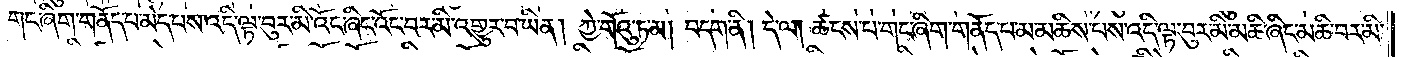གང་ཞིག་གནོད་པ་མེད་པས་འདི་ལྟ་བུར་མི་འོང་ཞིང་འོང་བར་མི་འགྱུར་བ་ཡིན། ཀྱེ་གོའུ་ཏ་མ། བདག་ནི། དེ་ལ། ཚངས་པ་གང་ཞིག་གནོད་པ་མ་མཆིས་པས་འདི་ལྟ་བུར་མ་མཆི་ཞིང་མཆི་བར་མི་
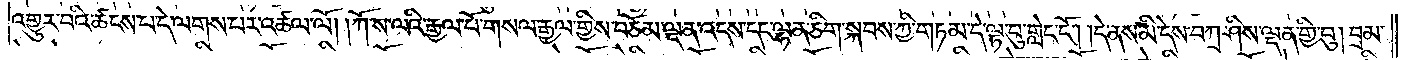འགྱུར་བའི་ཚངས་པ་དེ་ལགས་པར་འཚལ་ལོ། །ཀོ་ས་ལའི་རྒྱལ་པོ་གསལ་རྒྱལ་གྱིས་བཅོམ་ལྡན་འདས་དང་ལྷན་ཅིག་སྐབས་ཀྱི་གཏམ་དེ་ལྟ་བུ་གླེང་ངོ༌། །དེ་ནས་མི་དེས་བཀྲ་ཤིས་ལྡན་གྱི་བུ། བྲམ་
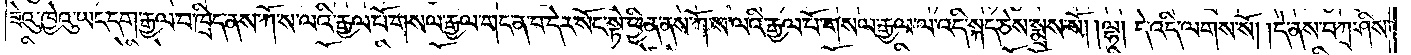ཟེའུ་ཁྱེའུ་ཡང་དག་རྒྱལ་བ་ཁྲིད་ནས་ཀོ་ས་ལའི་རྒྱལ་པོ་གསལ་རྒྱལ་གང་ན་བ་དེར་སོང་སྟེ་ཕྱིན་ནས་ཀོ་ས་ལའི་རྒྱལ་པོ་གསལ་རྒྱལ་ལ་འདི་སྐད་ཅེས་སྨྲས་སོ། །ལྷ། དེ་འདི་ལགས་སོ། །དེ་ནས་བཀྲ་ཤིས་
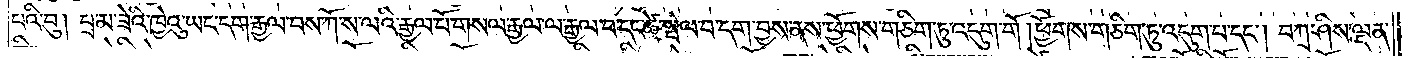པའི་བུ། བྲམ་ཟེའི་ཁྱེའུ་ཡང་དག་རྒྱལ་བས་ཀོ་ས་ལའི་རྒྱལ་པོ་གསལ་རྒྱལ་ལ་རྒྱལ་བ་དང་ཚེ་སྤེལ་བ་དག་བྱས་ནས་ཕྱོགས་གཅིག་ཏུ་འདུག་གོ །ཕྱོགས་གཅིག་ཏུ་འདུག་པ་དང༌། བཀྲ་ཤིས་ལྡན་
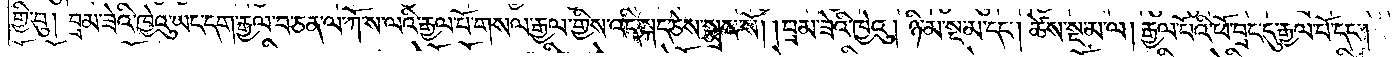གྱི་བུ། བྲམ་ཟེའི་ཁྱེའུ་ཡང་དག་རྒྱལ་བ་ཅན་ལ་ཀོ་ས་ལའི་རྒྱལ་པོ་གསལ་རྒྱལ་གྱིས་འདི་སྐད་ཅེས་སྨྲས་སོ། །བྲམ་ཟེའི་ཁྱེའུ། ཉི་མ་སྔ་མ་དང༌། ཚེས་སྔ་མ་ལ། རྒྱལ་པོའི་ཕོ་བྲང་དུ་རྒྱལ་པོ་དང༌།
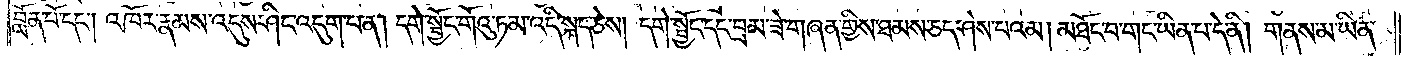བློན་པོ་དང༌། འཁོར་རྣམས་འདུས་ཤིང་འདུག་པ་ན། དགེ་སྦྱོང་གོའུ་ཏ་མ་འདི་སྐད་ཅེས། དགེ་སྦྱོང་དང་བྲམ་ཟེ་གཞན་གྱིས་ཐམས་ཅད་ཤེས་པའམ། མཐོང་བ་གང་ཡིན་པ་དེ་ནི། གནས་མ་ཡིན་
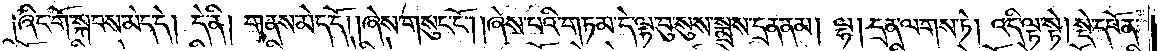ཞིང་གོ་སྐབས་མེད་དེ། དེ་ནི། གནས་མེད་དོ། །ཞེས་གསུང་ངོ༌། །ཞེས་པའི་གཏམ་དེ་ལྟ་བུ་སུས་སྨྲས་དྲན་ནམ། ལྷ། དྲན་ལགས་ཏེ། འདི་ལྟ་སྟེ། སྡེ་དཔོན་
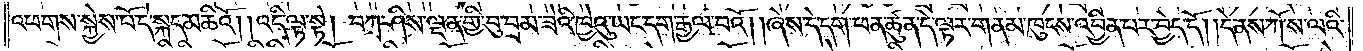འཕགས་སྐྱེས་བོ་དེ་སྐད་མཆིའོ། །འདི་ལྟ་སྟེ། བཀྲ་ཤིས་ལྡན་གྱི་བུ་བྲམ་ཟེའི་ཁྱེའུ་ཡང་དག་རྒྱལ་བའོ། །ཞེས་དེ་དག་ཕན་ཚུན་དེ་ལྟར་གནམ་ཁུངས་འབྱིན་པར་བྱེད་དོ། །དེ་ནས་ཀོ་ས་ལའི་
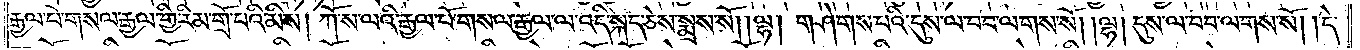རྒྱལ་པོ་གསལ་རྒྱལ་གྱི་རིམ་གྲོ་བའི་མིས། ཀོ་ས་ལའི་རྒྱལ་པོ་གསལ་རྒྱལ་ལ་འདི་སྐད་ཅེས་སྨྲས་སོ། །ལྷ། གཤེགས་པའི་དུས་ལ་བབ་ལགས་སོ། །ལྷ། དུས་ལ་བབ་ལགས་སོ། །དེ་
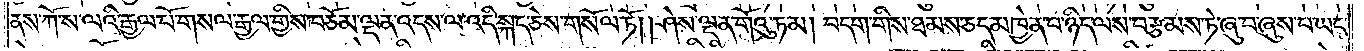ནས་ཀོ་ས་ལའི་རྒྱལ་པོ་གསལ་རྒྱལ་གྱིས་བཅོམ་ལྡན་འདས་ལ་འདི་སྐད་ཅེས་གསོལ་ཏོ། །ཤེས་ལྡན་གོའུ་ཏམ། བདག་གིས་ཐམས་ཅད་མཁྱེན་པ་ཉིད་ལས་བརྩམས་ཏེ་ཞུ་བ་ཞུས་པ་ཡང་
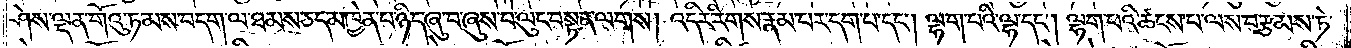ཤེས་ལྡན་གོའུ་ཏ་མས་བདག་ལ་ཐམས་ཅད་མཁྱེན་པ་ཉིད་ཞུ་བ་ཞུས་པ་ལུང་བསྟན་ལགས། འདིར་རིགས་རྣམ་པར་དག་པ་དང༌། ལྷག་པའི་ལྷ་དང༌། ལྷག་པའི་ཚངས་པ་ལས་བརྩམས་ཏེ་
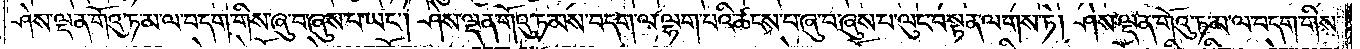ཤེས་ལྡན་གོའུ་ཏ་མ་ལ་བདག་གིས་ཞུ་བ་ཞུས་པ་ཡང༌། ཤེས་ལྡན་གོའུ་ཏ་མས་བདག་ལ་ལྷག་པའི་ཚངས་པ་ཞུ་བ་ཞུས་པ་ལུང་བསྟན་ལགས་ཏེ། ཤེས་ལྡན་གོའུ་ཏ་མ་ལ་བདག་གིས་
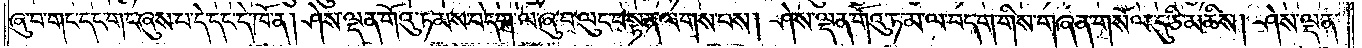ཞུ་བ་གང་དང་གང་ཞུས་པ་དེ་དང་དེ་ཁོ་ན། ཤེས་ལྡན་གོའུ་ཏ་མས་བདག་ལ་ཞུ་བ་ལུང་བསྟན་ལགས་པས། ཤེས་ལྡན་གོའུ་ཏ་མ་ལ་བདག་གིས་གཞན་གསོལ་དུ་ཅི་མཆིས། ཤེས་ལྡན་
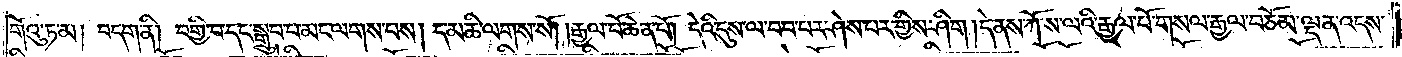གོའུ་ཏ་མ། བདག་ནི། བགྱི་བ་དང་སྒྲུབ་པ་མང་ལགས་བས། ད་མཆི་ལགས་སོ། །རྒྱལ་པོ་ཆེན་པོ། དེའི་དུས་ལ་བབ་པར་ཤེས་པར་གྱིས་ཤིག །དེ་ནས་ཀོ་ས་ལའི་རྒྱལ་པོ་གསལ་རྒྱལ་བཅོམ་ལྡན་འདས་
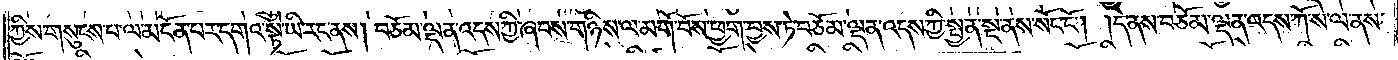ཀྱིས་གསུངས་པ་ལ་མངོན་པར་དགའ་སྟེ་ཡི་རང་ནས། བཅོམ་ལྡན་འདས་ཀྱི་ཞབས་གཉིས་ལ་མགོ་བོས་ཕྱག་བྱས་ཏེ་བཅོམ་ལྡན་འདས་ཀྱི་སྤྱན་སྔ་ནས་སོང་ངོ༌། །དེ་ནས་བཅོམ་ལྡན་འདས་ཀོ་ས་ལ་ནས་
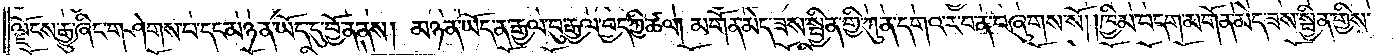ལྗོངས་རྒྱུ་ཞིང་གཤགས་པ་དང་མཉན་ཡོད་དུ་བྱོན་ནས། མཉན་ཡོད་ན་རྒྱལ་བུ་རྒྱལ་བྱེད་ཀྱི་ཚལ། མགོན་མེད་ཟས་སྦྱིན་གྱི་ཀུན་དགའ་ར་བ་ན་བཞུགས་སོ། །ཁྱིམ་བདག་མགོན་མེད་ཟས་སྦྱིན་གྱིས་
